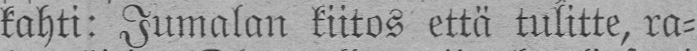kahti: Jumalan kiitos että tulitte, ra-
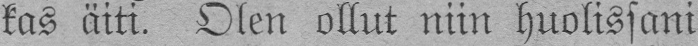kas äiti. Olen ollut niin huolissani
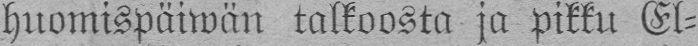huomispäiwän talkoosta ja pikku El-
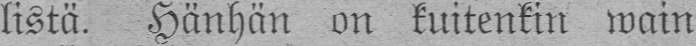listä. Hänhän on kuitenkin wain
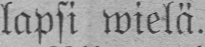lapsi wielä.
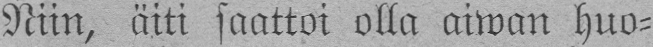Niin, äiti saattoi olla aiwan huo-
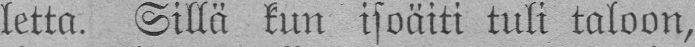letta. Sillä kun isoäiti tuli taloon,
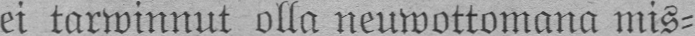ei tarwinnut olla neuwottomana mis-
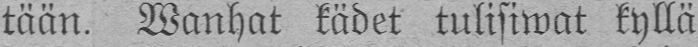tään. Wanhat kädet tulisiwat kyllä
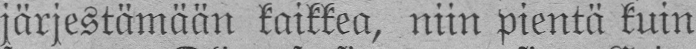järjestämään kaikkea, niin pientä kuin
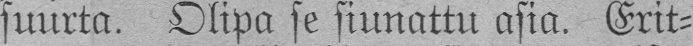suurta. Olipa se siunattu asia. Erit-
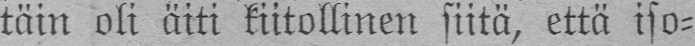täin oli äiti kiitollinen siitä, että iso-
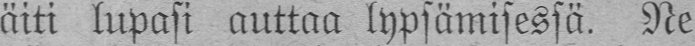äiti lupasi auttaa lypsämisessä. Ne
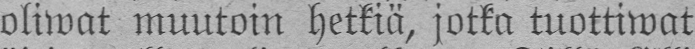oliwat muutoin hetkiä, jotka tuottiwat
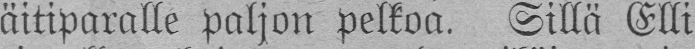äitiparalle paljon pelkoa. Sillä Elli
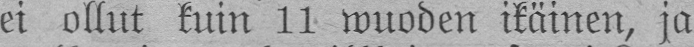ei ollut kuin 11 wuoden ikäinen, ja
